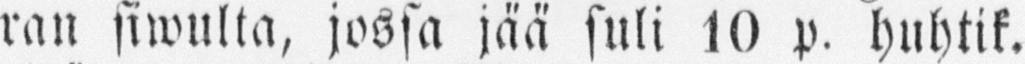ran siwulta, jossa jää suli 10 p. hubtik,
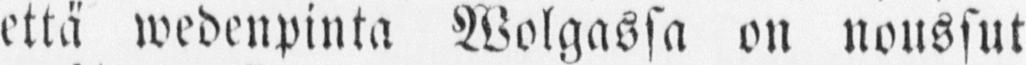että wedenpinta Wolgassa on noussut
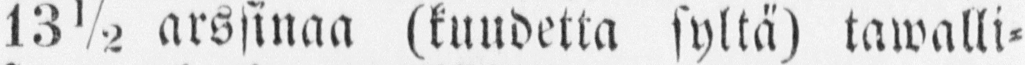13½ arssinaa (kuudetta syltä) tawalli-
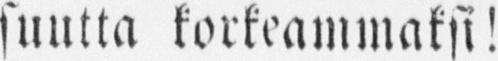suutta korkeammaksi!
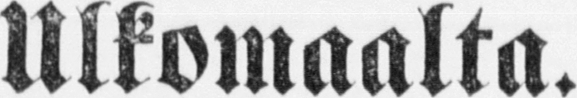Ulkomaalta.
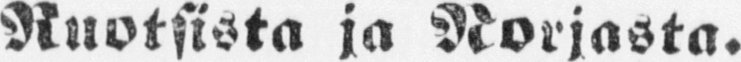Ruotsista ja Norjasta.
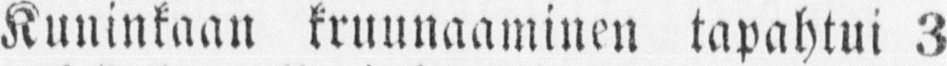Kuninkaan kruunaaminen tapahtui 3
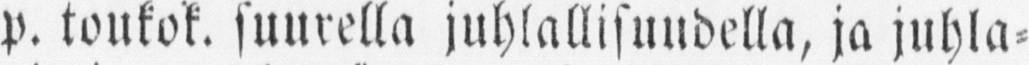p. toukok. suurella juhlallisuudella, ja juhla-
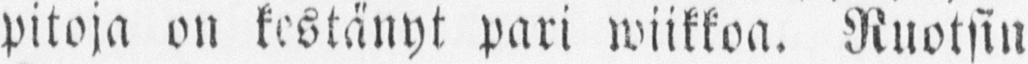pitoja on kestänyt pari wiikkoa. Ruotsin
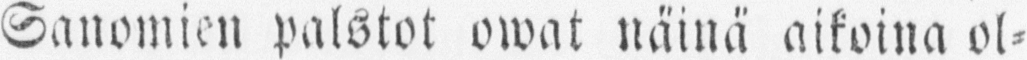Sanomien palstot owat näinä aikoina ol-
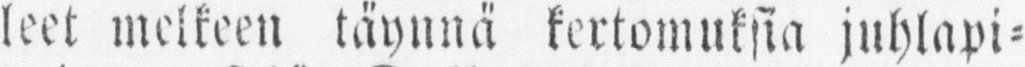leet melkeen täynnä kertomuksia juhlapi-
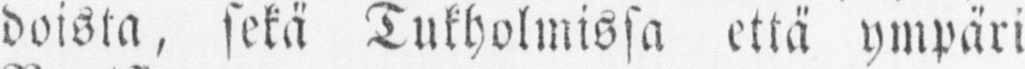doista, sekä Tukholmissa että ympäri
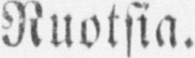Ruotsia.
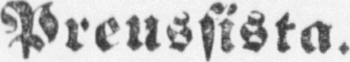Preussista.
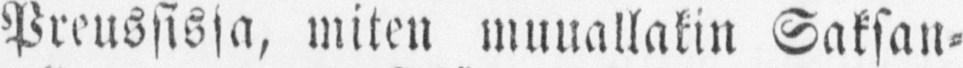Preussissa, miten muuallakin Saksan-
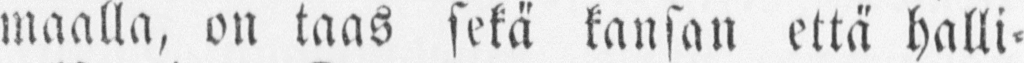maalla, on taas sekä kansan että halli-
